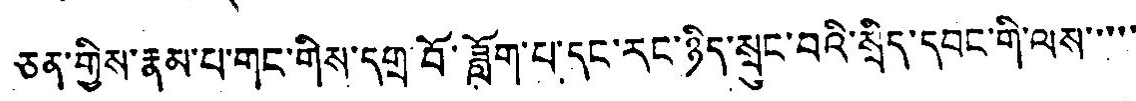ཅན་གྱིས་རྣམ་པ་གང་གིས་དགྲ་བོ་ཟློག་པ་དང་རང་ཉིད་སྲུང་བའི་སྲིད་དབང་གི་ལས་་་་་
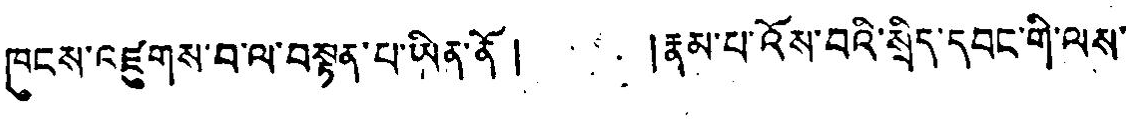ཁུངས་འཛུགས་བ་ལ་བསྟན་པ་ཡིན་ནོ། །རྣམ་པ་འོས་བའི་སྲིད་དབང་གི་ལས་
